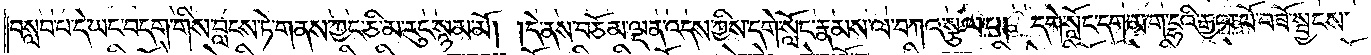བསླབ་པ་དེ་ཡང་བདག་གིས་བླངས་ཏེ་གནས་ཀྱང་ཅི་མ་རུང་སྙམ་མོ། །དེ་ནས་བཅོམ་ལྡན་འདས་ཀྱིས་དགེ་སློང་རྣམས་ལ་བཀའ་སྩལ་པ། དགེ་སློང་དག་མ་ག་དྷའི་རྒྱལ་པོ་བཟོ་སྦྱངས་
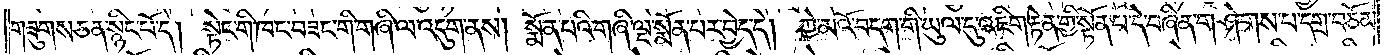གཟུགས་ཅན་སྙིང་པོ་དེ། སྟེང་གི་ཁང་བཟང་གི་གཞི་ལ་འདུག་ནས། སྨོན་པའི་གཞི་ལྔ་སྨོན་པར་བྱེད་དེ། ཀྱེ་མའོ་བདག་གི་ཡུལ་དུ་འཇིག་རྟེན་གྱི་སྟོན་པ་དེ་བཞིན་གཤེགས་པ་དགྲ་བཅོམ་
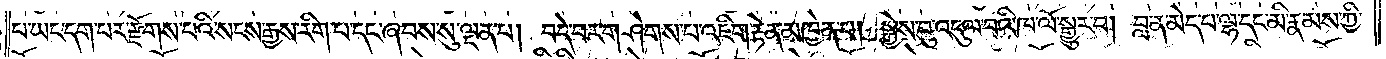པ་ཡང་དག་པར་རྫོགས་པའི་སངས་རྒྱས་རིག་པ་དང་ཞབས་སུ་ལྡན་པ། བདེ་བར་གཤེགས་པ་འཇིག་རྟེན་མཁྱེན་པ། སྐྱེས་བུ་འདུལ་བའི་ཁ་ལོ་སྒྱུར་བ། བླ་ན་མེད་པ་ལྷ་དང་མི་རྣམས་ཀྱི་
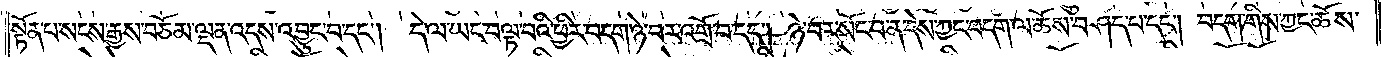སྟོན་པ་སངས་རྒྱས་བཅོམ་ལྡན་འདས་འབྱུང་བ་དང༌། དེ་ལ་ཡང་བལྟ་བའི་ཕྱིར་བདག་ཉེ་བར་འགྲོ་བ་དང༌། ཉེ་བར་སོང་བ་ན་དེས་ཀྱང་བདག་ལ་ཆོས་བཤད་པ་དང༌། བདག་གིས་ཀྱང་ཆོས་
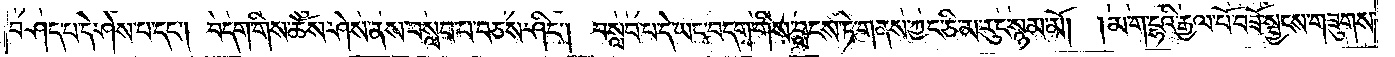བཤད་པ་དེ་ཤེས་པ་དང༌། བདག་གིས་ཆོས་ཤེས་ནས་བསླབ་པ་བཅས་ཤིང༌། བསླབ་པ་དེ་ཡང་བདག་གིས་བླངས་ཏེ་གནས་ཀྱང་ཅི་མ་རུང་སྙམ་མོ། །མ་ག་དྷའི་རྒྱལ་པོ་བཟོ་སྦྱངས་གཟུགས་
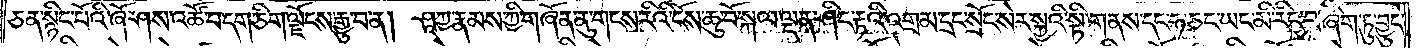ཅན་སྙིང་པོའི་ཞོ་ཤས་འཚོ་བ་དག་ཅིག་ལྗོངས་རྒྱུ་བ་ན། ཤཱཀྱ་རྣམས་ཀྱི་གཞོན་ནུ་གངས་རིའི་ངོས་ཆུ་བོ་སྐལ་ལྡན་ཤིང་རྟའི་འགྲམ་དྲང་སྲོང་སེར་སྐྱའི་སྟི་གནས་དང་ཧ་ཅང་ཡང་མི་རིང་པ་ཞིག་ཏུ་བྱུང་
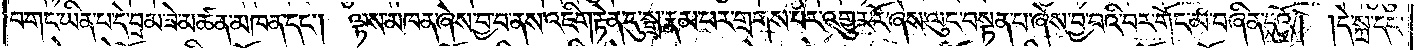བ་གང་ཡིན་པ་དེ་བྲམ་ཟེ་མཚན་མཁན་དང༌། ལྟས་མཁན་ཞེས་བྱ་བ་ནས་འཇིག་རྟེན་དུ་སྒྲ་རྣམ་པར་གྲགས་པར་འགྱུར་རོ་ཞེས་ལུང་བསྟན་པ་ཞེས་བྱ་བའི་བར་གོང་མ་བཞིན་དུའོ། །དེ་སྐྲ་དང་
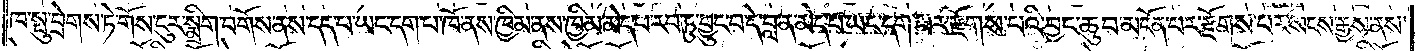ཁ་སྤུ་བྲེགས་ཏེ་གོས་ངུར་སྨྲིག་བགོས་ནས་དད་པ་ཡང་དག་པ་ཁོ་ནས་ཁྱིམ་ནས་ཁྱིམ་མེད་པ་རབ་ཏུ་བྱུང་བ་དེ་བླ་ན་མེད་པ་ཡང་དག་པར་རྫོགས་པའི་བྱང་ཆུབ་མངོན་པར་རྫོགས་པར་སངས་རྒྱས་ནས་
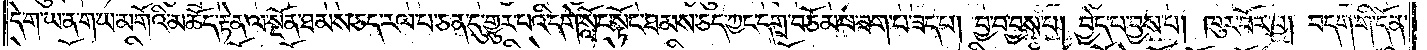དེ་ག་ཡ་ན་ག་ཡ་མགོའི་མཆོད་རྟེན་ལ་སྔོན་ཐམས་ཅད་རལ་པ་ཅན་དུ་གྱུར་པའི་དགེ་སློང་སྟོང་ཐམས་ཅད་ཀྱང་དགྲ་བཅོམ་པ་ཟག་པ་ཟད་པ། བྱ་བ་བྱས་པ། བྱེད་པ་བྱས་པ་དང༌། ཁུར་བོར་བ། བདག་གི་དོན་
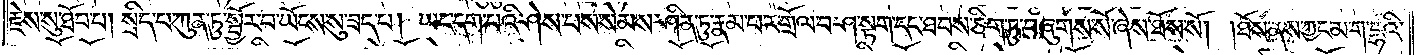རྗེས་སུ་ཐོབ་པ། སྲིད་པ་ཀུན་ཏུ་སྦྱོར་བ་ཡོངས་སུ་ཟད་པ། ཡང་དག་པའི་ཤེས་པས་སེམས་ཤིན་ཏུ་རྣམ་པར་གྲོལ་བ་ཤ་སྟག་དང་ཐབས་ཅིག་ཏུ་བཞུགས་སོ་ཞེས་ཐོས་སོ། །ཐོས་ནས་ཀྱང་མ་ག་དྷའི་
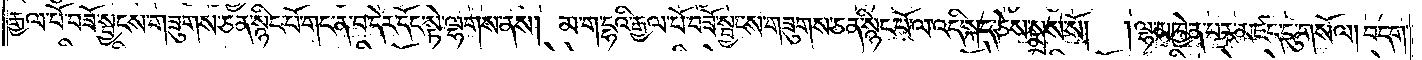རྒྱལ་པོ་བཟོ་སྦྱངས་གཟུགས་ཅན་སྙིང་པོ་གང་ན་བ་དེར་དོང་སྟེ་ལྷགས་ནས། མ་ག་དྷའི་རྒྱལ་པོ་བཟོ་སྦྱངས་གཟུགས་ཅན་སྙིང་པོ་ལ་འདི་སྐད་ཅེས་སྨྲས་སོ།   །ལྷ་མཁྱེན་པར་མཛད་དུ་གསོལ། བདག་
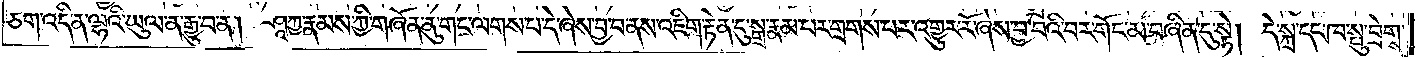ཅག་འདི་ན་ལྷའི་ཡུལ་ན་རྒྱུ་བ་ན། ཤཱཀྱ་རྣམས་ཀྱི་གཞོན་ནུ་གང་ལགས་པ་དེ་ཞེས་བྱ་བ་ནས་འཇིག་རྟེན་དུ་སྒྲ་རྣམ་པར་གྲགས་པར་འགྱུར་རོ་ཞེས་བྱ་བའི་གོང་མ་བཞིན་དུ་སྟེ། དེ་སྐྲ་དང་ཁ་སྤུ་བྲེགས་
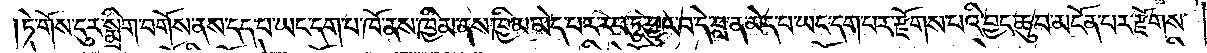ཏེ་གོས་ངུར་སྨྲིག་བགོས་ནས་དད་པ་ཡང་དག་པ་ཁོ་ནས་ཁྱིམ་ནས་ཁྱིམ་མེད་པར་རབ་ཏུ་བྱུང་བ་དེ་བླ་ན་མེད་པ་ཡང་དག་པར་རྫོགས་པའི་བྱང་ཆུབ་མངོན་པར་རྫོགས་
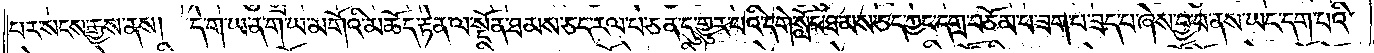པར་སངས་རྒྱས་ནས། དེ་ག་ཡ་ན་ག་ཡ་མགོའི་མཆོད་རྟེན་ལ་སྔོན་ཐམས་ཅད་རལ་བ་ཅན་དུ་གྱུར་པའི་དགེ་སློང་ཐམས་ཅད་ཀྱང་དགྲ་བཅོམ་པ་ཟག་པ་ཟད་པ་ཞེས་བྱ་བ་ནས་ཡང་དག་པའི་
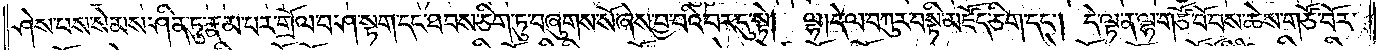ཤེས་པས་སེམས་ཤིན་ཏུ་རྣམ་པར་གྲོལ་བ་ཤ་སྟག་དང་ཐབས་ཅིག་ཏུ་བཞུགས་སོ་ཞེས་བྱ་བའི་བར་དུ་སྟེ། ལྷ། དེ་ལ་བཀུར་བསྟི་མཛོད་ཅིག་དང༌། དེ་ལྟ་ན་ལྷ་གཙོ་བོ་བས་ཆེས་གཙོ་བོར་
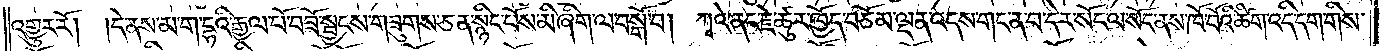འགྱུར་རོ། །དེ་ནས་མ་ག་དྷའི་རྒྱལ་པོ་བཟོ་སྦྱངས་གཟུགས་ཅན་སྙིང་པོས་མི་ཞིག་ལ་བསྒོ་བ། ཀྭའེ་ནང་རྗེ་ཚུར་ཁྱོད་བཅོམ་ལྡན་འདས་གང་ན་བ་དེར་སོང་ལ་སོང་ནས་ཁོ་བོའི་ཚིག་འདི་དག་གིས་
